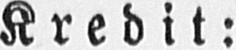Kredit:
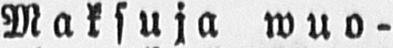Maksuja wuo-
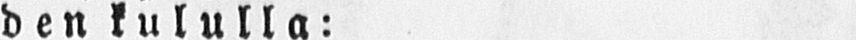den kululla:
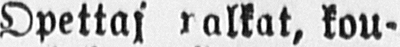Opettaj palkat, kou-
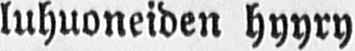luhuoneiden hyyry
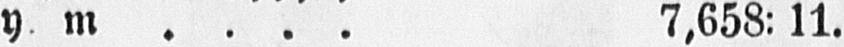y m.... 7,658:11.
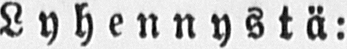Lyhennystä:
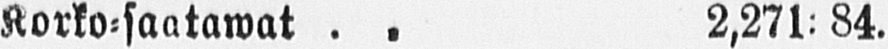Korko-saatawat.. 2,271:84.
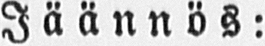Jäännös:
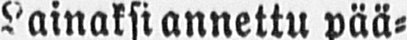Lainaksi annettu pää-
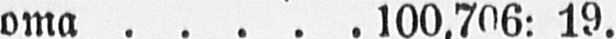oma 100,706: 19.
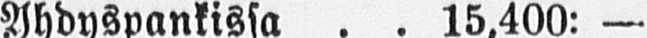Yhdyspankissa 15,400: —
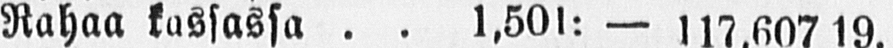Rahaa kassassa 1,501: — 117,607 19.
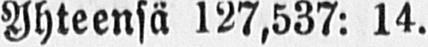Yhteensä 127,537: 14.
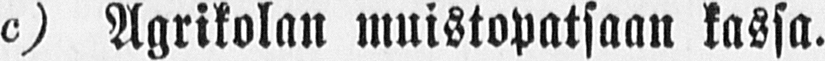c) Agrikolan muistopatsaan kassa.
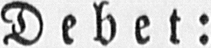Debet:
